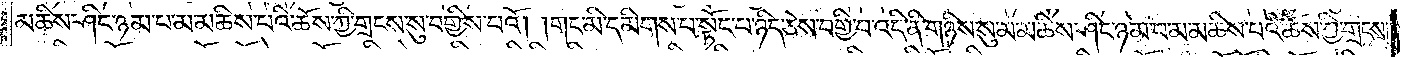མཆིས་ཤིང་ཉམ་པ་མ་མཆིས་པའི་ཆོས་ཀྱི་གྲངས་སུ་བགྱིས་པའོ། །གང་མི་དམིགས་པ་སྟོང་པ་ཉིད་ཅེས་བགྱི་བ་འདི་ནི་གཉིས་སུ་མ་མཆིས་ཤིང་ཉམ་པ་མ་མཆིས་པའི་ཆོས་ཀྱི་གྲངས་
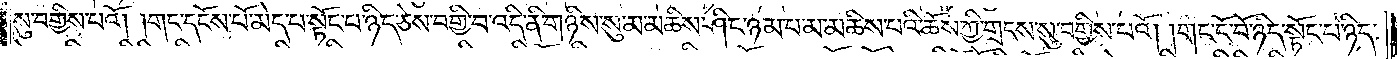སུ་བགྱིས་པའོ། །གང་དངོས་པོ་མེད་པ་སྟོང་པ་ཉིད་ཅེས་བགྱི་བ་འདི་ནི་གཉིས་སུ་མ་མཆིས་ཤིང་ཉམ་པ་མ་མཆིས་པའི་ཆོས་ཀྱི་གྲངས་སུ་བགྱིས་པའོ། །གང་ངོ་བོ་ཉིད་སྟོང་པ་ཉིད་
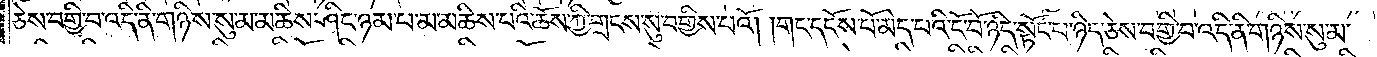ཅེས་བགྱི་བ་འདི་ནི་གཉིས་སུ་མ་མཆིས་ཤིང་ཉམ་པ་མ་མཆིས་པའི་ཆོས་ཀྱི་གྲངས་སུ་བགྱིས་པའོ། །གང་དངོས་པོ་མེད་པའི་ངོ་བོ་ཉིད་སྟོང་པ་ཉིད་ཅེས་བགྱི་བ་འདི་ནི་གཉིས་སུ་མ་
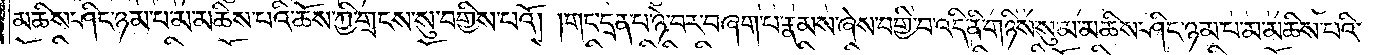མཆིས་ཤིང་ཉམ་པ་མ་མཆིས་པའི་ཆོས་ཀྱི་གྲངས་སུ་བགྱིས་པའོ། །གང་དྲན་པ་ཉེ་བར་བཞག་པ་རྣམས་ཞེས་བགྱི་བ་འདི་ནི་གཉིས་སུ་མ་མཆིས་ཤིང་ཉམ་པ་མ་མཆིས་པའི་
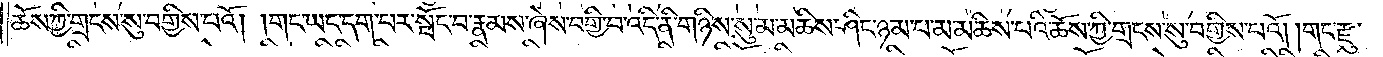ཆོས་ཀྱི་གྲངས་སུ་བགྱིས་པའོ། །གང་ཡང་དག་པར་སྤོང་བ་རྣམས་ཞེས་བགྱི་བ་འདི་ནི་གཉིས་སུ་མ་མཆིས་ཤིང་ཉམ་པ་མ་མཆིས་པའི་ཆོས་ཀྱི་གྲངས་སུ་བགྱིས་པའོ། །གང་རྫུ་
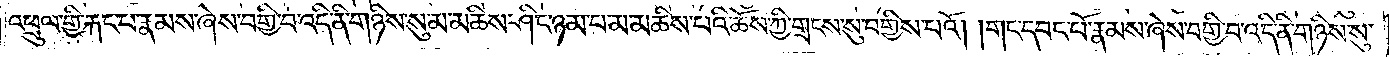འཕྲུལ་གྱི་རྐང་པ་རྣམས་ཞེས་བགྱི་བ་འདི་ནི་གཉིས་སུ་མ་མཆིས་ཤིང་ཉམ་པ་མ་མཆིས་པའི་ཆོས་ཀྱི་གྲངས་སུ་བགྱིས་པའོ། །གང་དབང་པོ་རྣམས་ཞེས་བགྱི་བ་འདི་ནི་གཉིས་སུ་
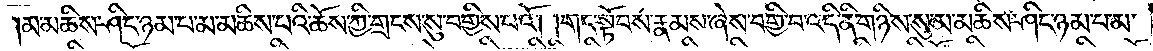མ་མཆིས་ཤིང་ཉམ་པ་མ་མཆིས་པའི་ཆོས་ཀྱི་གྲངས་སུ་བགྱིས་པའོ། །གང་སྟོབས་རྣམས་ཞེས་བགྱི་བ་འདི་ནི་གཉིས་སུ་མ་མཆིས་ཤིང་ཉམ་པ་མ་
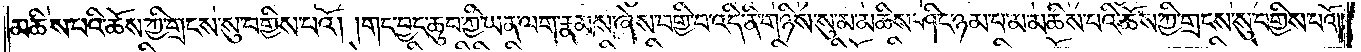མཆིས་པའི་ཆོས་ཀྱི་གྲངས་སུ་བགྱིས་པའོ། །གང་བྱང་ཆུབ་ཀྱི་ཡན་ལག་རྣམས་ཞེས་བགྱི་བ་འདི་ནི་གཉིས་སུ་མ་མཆིས་ཤིང་ཉམ་པ་མ་མཆིས་པའི་ཆོས་ཀྱི་གྲངས་སུ་བགྱིས་པའོ། །
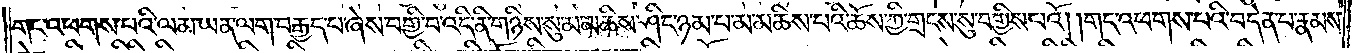གང་འཕགས་པའི་ལམ་ཡན་ལག་བརྒྱད་པ་ཞེས་བགྱི་བ་འདི་ནི་གཉིས་སུ་མ་མཆིས་ཤིང་ཉམ་པ་མ་མཆིས་པའི་ཆོས་ཀྱི་གྲངས་སུ་བགྱིས་པའོ། །གང་འཕགས་པའི་བདེན་པ་རྣམས་
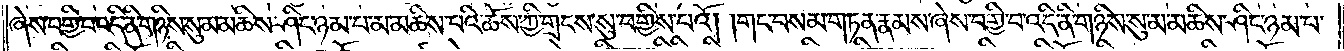ཞེས་བགྱི་བ་འདི་ནི་གཉིས་སུ་མ་མཆིས་ཤིང་ཉམ་པ་མ་མཆིས་པའི་ཆོས་ཀྱི་གྲངས་སུ་བགྱིས་པའོ། །གང་བསམ་གཏན་རྣམས་ཞེས་བགྱི་བ་འདི་ནི་གཉིས་སུ་མ་མཆིས་ཤིང་ཉམ་པ་
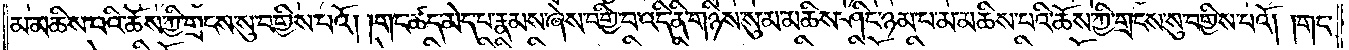མ་མཆིས་པའི་ཆོས་ཀྱི་གྲངས་སུ་བགྱིས་པའོ། །གང་ཚད་མེད་པ་ནམས་ཞེས་བགྱི་བ་འདི་ནི་གཉིས་སུ་མ་མཆིས་ཤིང་ཉམ་པ་མ་མཆིས་པའི་ཆོས་ཀྱི་གྲངས་སུ་བགྱིས་པའོ། །གང་
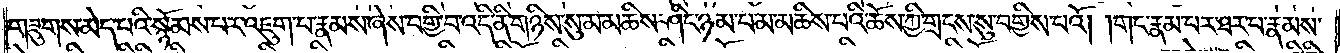གཟུགས་མེད་པའི་སྙོམས་པར་འཇུག་པ་རྣམས་ཞེས་བགྱི་བ་འདི་ནི་གཉིས་སུ་མ་མཆིས་ཤིང་ཉམ་པ་མ་མཆིས་པའི་ཆོས་ཀྱི་གྲངས་སུ་བགྱིས་པའོ། །གང་རྣམ་པར་ཐར་པ་རྣམས་
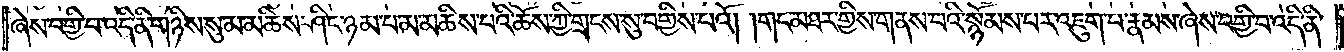ཞེས་བགྱི་བ་འདི་ནི་གཉིས་སུ་མ་མཆིས་ཤིང་ཉམ་པ་མ་མཆིས་པའི་ཆོས་ཀྱི་གྲངས་སུ་བགྱིས་པའོ། །གང་མཐར་གྱིས་གནས་པའི་སྙོམས་པར་འཇུག་པ་རྣམས་ཞེས་བགྱི་བ་འདི་ནི་
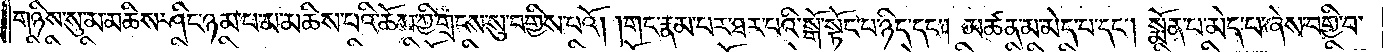གཉིས་སུ་མ་མཆིས་ཤིང་ཉམ་པ་མ་མཆིས་པའི་ཆོས་ཀྱི་གྲངས་སུ་བགྱིས་པའོ། །གང་རྣམ་པར་ཐར་པའི་སྒོ་སྟོང་པ་ཉིད་དང༌། མཚན་མ་མེད་པ་དང༌། སྨོན་པ་མེད་པ་ཞེས་བགྱི་བ་
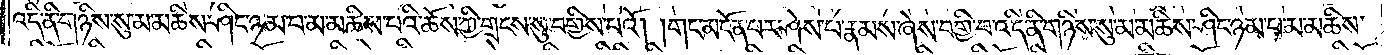འདི་ནི་གཉིས་སུ་མ་མཆིས་ཤིང་ཉམ་པ་མ་མཆིས་པའི་ཆོས་ཀྱི་གྲངས་སུ་བགྱིས་པའོ། །གང་མངོན་པར་ཤེས་པ་རྣམས་ཞེས་བགྱི་བ་འདི་ནི་གཉིས་སུ་མ་མཆིས་ཤིང་ཉམ་པ་མ་མཆིས་
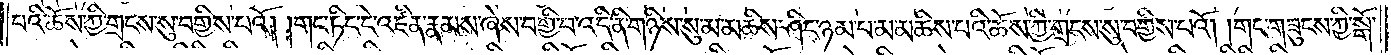པའི་ཆོས་ཀྱི་གྲངས་སུ་བགྱིས་པའོ། །གང་ཏིང་ངེ་འཛིན་རྣམས་ཞེས་བགྱི་བ་འདི་ནི་གཉིས་སུ་མ་མཆིས་ཤིང་ཉམ་པ་མ་མཆིས་པའི་ཆོས་ཀྱི་གྲངས་སུ་བགྱིས་པའོ། །གང་གཟུངས་ཀྱི་སྒོ་
